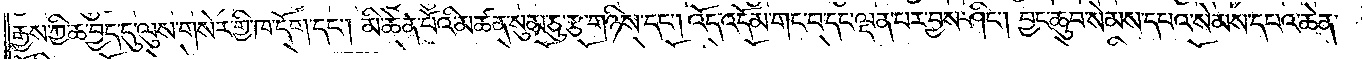རྒྱས་ཀྱི་ཆ་བྱེད་དུ་ལུས་གསེར་གྱི་ཁ་དོག་དང༌། མི་ཆེན་པོའི་མཚན་སུམ་ཅུ་རྩ་གཉིས་དང༌། འོད་འདོམ་གང་བ་དང་ལྡན་པར་བྱས་ཤིང༌། བྱང་ཆུབ་སེམས་དཔའ་སེམས་དཔའ་ཆེན་
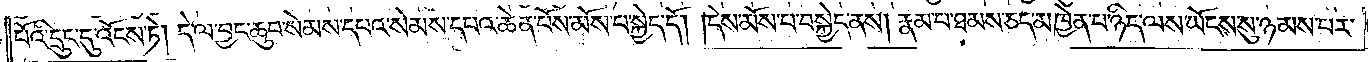པོའི་དྲུང་དུ་འོངས་ཏེ། དེ་ལ་བྱང་ཆུབ་སེམས་དཔའ་སེམས་དཔའ་ཆེན་པོས་མོས་པ་སྐྱེད་དོ། །དེས་མོས་པ་བསྐྱེད་ནས། རྣམ་པ་ཐམས་ཅད་མཁྱེན་པ་ཉིད་ལས་ཡོངས་སུ་ཉམས་པར་
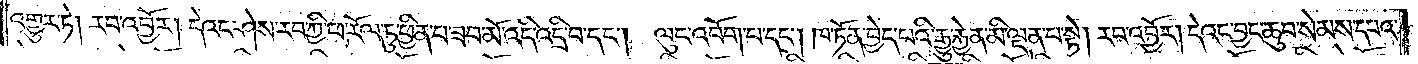འགྱུར་ཏེ། རབ་འབྱོར། དེའང་ཤེས་རབ་ཀྱི་ཕ་རོལ་ཏུ་ཕྱིན་པ་ཟབ་མོ་འདི་འདྲི་བ་དང༌། ལུང་འབོག་པ་དང༌། ཁ་ཏོན་བྱེད་པའི་རྒྱུ་རྐྱེན་མི་ལྡན་པ་སྟེ། རབ་འབྱོར། དེའང་བྱང་ཆུབ་སེམས་དཔའ་
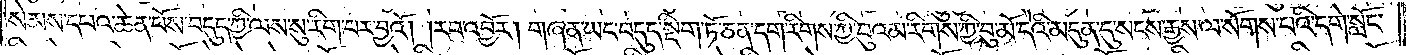སེམས་དཔའ་ཆེན་པོས་བདུད་ཀྱི་ལས་སུ་རིག་པར་བྱའོ། །རབ་འབྱོར། གཞན་ཡང་བདུད་སྡིག་ཏོ་ཅན་དག་རིགས་ཀྱི་བུ་འམ་རིགས་ཀྱི་བུ་མོ་དེའི་མདུན་དུ་སངས་རྒྱས་ལ་སོགས་པའི་དགེ་སློང་
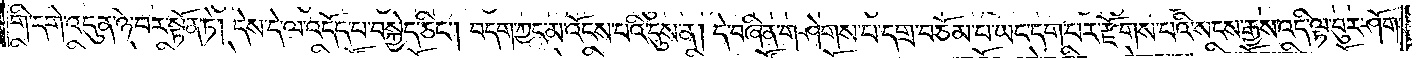གི་དགེ་འདུན་ཉེ་བར་སྟོན་ཏེ། དེས་དེ་ལ་འདོད་པ་བསྐྱེད་ཅིང༌། བདག་ཀྱང་མ་འོངས་པའི་དུས་ན། དེ་བཞིན་གཤེགས་པ་དགྲ་བཅོམ་པ་ཡང་དག་པར་རྫོགས་པའི་སངས་རྒྱས་འདི་ལྟ་བུར་ཤོག་
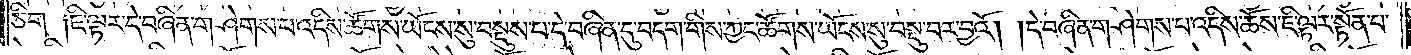ཅིག ༑ཇི་ལྟར་དེ་བཞིན་གཤེགས་པ་འདིས་ཚོགས་ཡོངས་སུ་བསྡུས་པ་དེ་བཞིན་དུ་བདག་གིས་ཀྱང་ཚོགས་ཡོངས་སུ་བསྡུ་བར་བྱའོ། །དེ་བཞིན་གཤེགས་པ་འདིས་ཆོས་ཇི་ལྟར་སྟོན་པ་
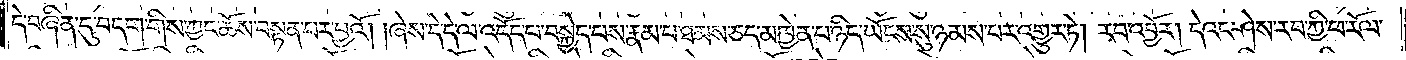དེ་བཞིན་དུ་བདག་གིས་ཀྱང་ཆོས་བསྟན་པར་བྱའོ། །ཞེས་དེ་དེ་ལ་འདོད་པ་བསྐྱེད་པས་རྣམ་པ་ཐམས་ཅད་མཁྱེན་པ་ཉིད་ཡོངས་སུ་ཉམས་པར་འགྱུར་ཏེ། རབ་འབྱོར། དེའང་ཤེས་རབ་ཀྱི་ཕ་རོལ་
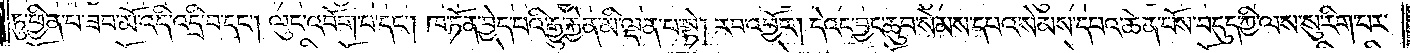ཏུ་ཕྱིན་པ་ཟབ་མོ་འདི་འདྲི་བ་དང༌། ལུང་འབོག་པ་དང༌། ཁ་ཏོན་བྱེད་པའི་རྒྱུ་རྐྱེན་མི་ལྡན་པ་སྟེ། རབ་འབྱོར། དེའང་བྱང་ཆུབ་སེམས་དཔའ་སེམས་དཔའ་ཆེན་པོས་བདུད་ཀྱི་ལས་སུ་རིག་པར་
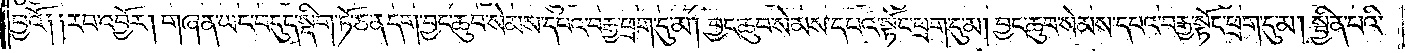བྱའོ། །རབ་འབྱོར། གཞན་ཡང་བདུད་སྡིག་ཏོ་ཅན་དག་བྱང་ཆུབ་སེམས་དཔའ་བརྒྱ་ཕྲག་དུ་མ། བྱང་ཆུབ་སེམས་དཔའ་སྟོང་ཕྲག་དུ་མ། བྱང་ཆུབ་སེམས་དཔའ་བརྒྱ་སྟོང་ཕྲག་དུ་མ། སྦྱིན་པའི་
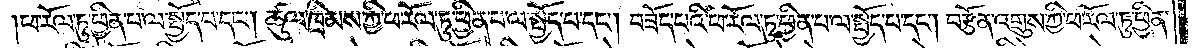ཕ་རོལ་ཏུ་ཕྱིན་པ་ལ་སྤྱོད་པ་དང༌། ཚུལ་ཁྲིམས་ཀྱི་ཕ་རོལ་ཏུ་ཕྱིན་པ་ལ་སྤྱོད་པ་དང༌། བཟོད་པའི་ཕ་རོལ་ཏུ་ཕྱིན་པ་ལ་སྤྱོད་པ་དང༌། བརྩོན་འགྲུས་ཀྱི་ཕ་རོལ་ཏུ་ཕྱིན་
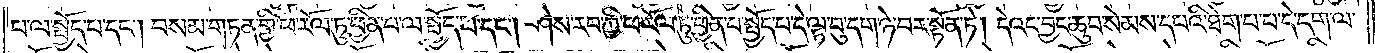པ་ལ་སྤྱོད་པ་དང༌། བསམ་གཏན་གྱི་ཕ་རོལ་ཏུ་ཕྱིན་པ་ལ་སྤྱོད་པ་དང༌། ཤེས་རབ་ཀྱི་ཕ་རོལ་ཏུ་ཕྱིན་པ་ལ་སྤྱོད་པ་དེ་ལྟ་བུ་དག་ཉེ་བར་སྟོན་ཏེ། དེའང་བྱང་ཆུབ་སེམས་དཔའི་ཐེག་པ་པ་དེ་དག་ལ་
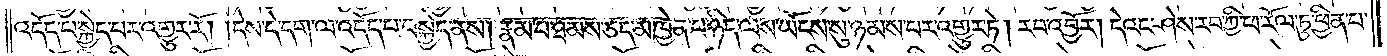འདོད་པ་སྐྱེད་པར་འགྱུར་རོ། །དེས་དེ་དག་ལ་འདོད་པ་བསྐྱེད་ནས། རྣམ་པ་ཐམས་ཅད་མཁྱེན་པ་ཉིད་ལས་ཡོངས་སུ་ཉམས་པར་འགྱུར་ཏེ། རབ་འབྱོར། དེའང་ཤེས་རབ་ཀྱི་ཕ་རོལ་ཏུ་ཕྱིན་པ་
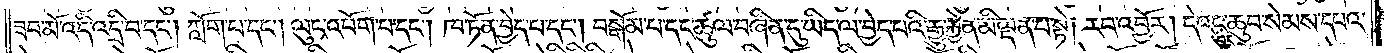ཟབ་མོ་འདི་འདྲི་བ་དང༌། ཀློག་པ་དང༌། ལུང་འབོག་པ་དང༌། ཁ་ཏོན་བྱེད་པ་དང༌། བསྒོམ་པ་དང་ཚུལ་བཞིན་དུ་ཡིད་ལ་བྱེད་པའི་རྒྱུ་རྐྱེན་མི་ལྡན་པ་སྟེ། རབ་འབྱོར། དེའང་བྱང་ཆུབ་སེམས་དཔའ་
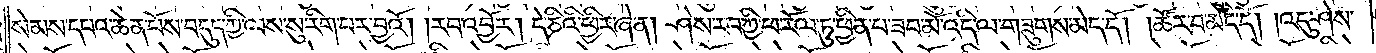སེམས་དཔའ་ཆེན་པོས་བདུད་ཀྱི་ལས་སུ་རིག་པར་བྱའོ། །རབ་འབྱོར། དེ་ཅིའི་ཕྱིར་ཞེ་ན། ཤེས་རབ་ཀྱི་ཕ་རོལ་ཏུ་ཕྱིན་པ་ཟབ་མོ་འདི་ལ་གཟུགས་མེད་དོ། །ཚོར་བ་མེད་དོ། །འདུ་ཤེས་
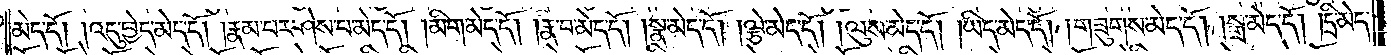མེད་དོ། །འདུ་བྱེད་མེད་དོ། །རྣམ་པར་ཤེས་པ་མེད་དོ། །མིག་མེད་དོ། །རྣ་བ་མེད་དོ། །སྣ་མེད་དོ། །ལྕེ་མེད་དོ། །ལུས་མེད་དོ། །ཡིད་མེད་དོ། །གཟུགས་མེད་དོ། །སྒྲ་མེད་དོ། །དྲི་མེད་
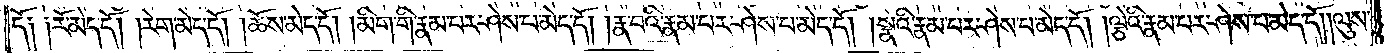དོ༑ ༑རོ་མེད་དོ། །རེག་མེད་དོ། །ཆོས་མེད་དོ། །མིག་གི་རྣམ་པར་ཤེས་པ་མེད་དོ། །རྣ་བའི་རྣམ་པར་ཤེས་པ་མེད་དོ། །སྣའི་རྣམ་པར་ཤེས་པ་མེད་དོ། །ལྕེའི་རྣམ་པར་ཤེས་པ་མེད་དོ། །ལུས་
